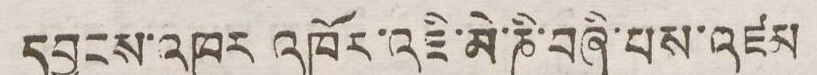དབྱངས་འཁུར འཁོར་འཇི་མེ་ཎི་བཞི་པས་འཛམ
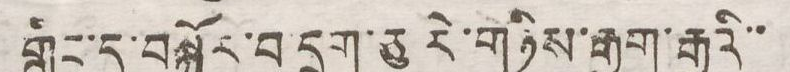གླིང་དུ་བསྐོར་བ་དྲུག་ཅུ་རེ་གཉིས་རྒྱག་རྒྱུའི་་
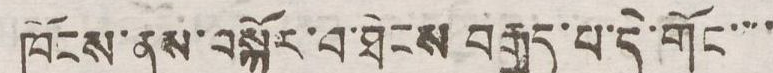ཁོངས་ནས་བསྐོར་བ་ཐེངས བརྒྱད་པ་དེ་གོང་་་་
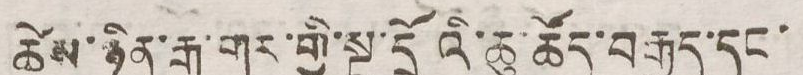ཚེས་ཉིན་རྒྱ་གར་གྱི་སྔ་དྲོའི་ཆུ་ཚོད་བརྒྱད་དང་
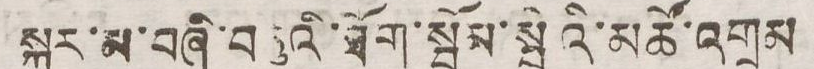སྐར་མ་བཞི་བཅུའི་ཐོག་སྦོམ་སྦེའི་མཚོ་འགྲམ
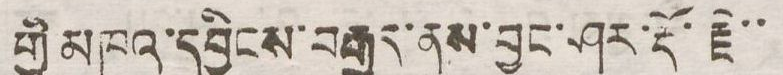གྱི་མཁའ་དབྱིངས་བརྒྱུད་ནས་བྱང་ཤར་རྡོ་རྗེ་་
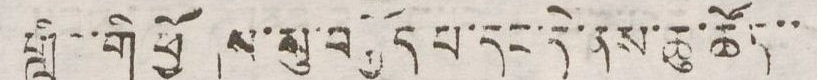གླིང་གི ཕྱོགས་སུ་བསྐྱོད་པ་དང་དེ་ནས་ཆུ་ཚོད་་
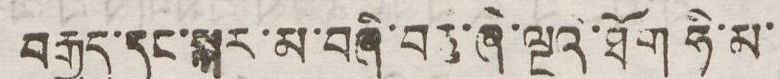བརྒྱད་དང་སྐར་མ་བཞི་བཅུ་ཞེ་ལྔའི་ཐོག ཧི་མ་
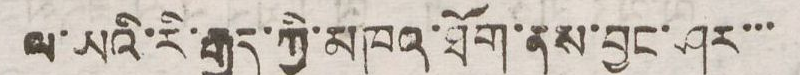ལ་ཡའི་རི་རྒྱུད་ཀྱི་མཁའ་ཐོག་ནས་བྱང་ཤར་་་
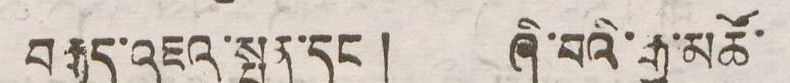བརྒྱུད་འཇའ་སྤན་དང་། ཞི་བའི་རྒྱ་མཚོ་
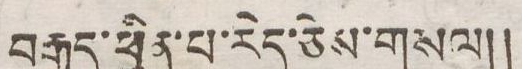བརྒྱད་ཕྱིན་པ་རེད་ཅེས་གསལ།།
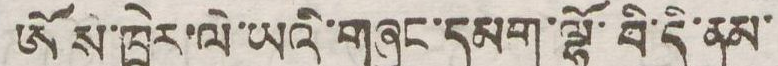ཨོ་སེ་ཁྲེར་ལེ་ཡའི་གཞུང་དམག་ལྷོ་བི་དི་ནམ་
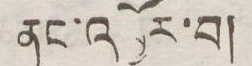ནང་འབྱོར་བ།
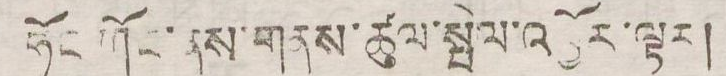ཧོང ཀོང་ནས་གནས་ཚུལ་སྤེལ་འབྱོར་ལྟར།
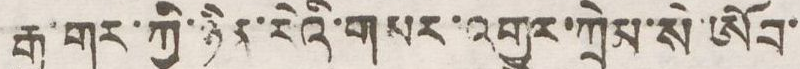རྒྱ་གར་ཀྱི་ཉིན་རེའི་གསར་འགྱུར་ཀྲེམ་སེ་ཨོབ་
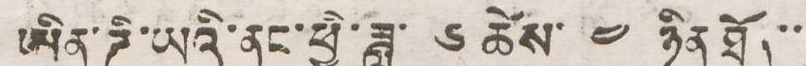ཨིན་ཌི་ཡའི་ནང་ཕྱི་ཟླ་ ༦ ཚེས་ ༤ ཉིན་ཐོན་་
